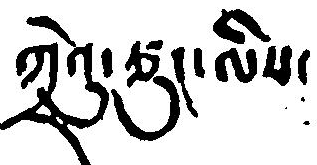ཀྲེའུ་ཙུང་ལིས་
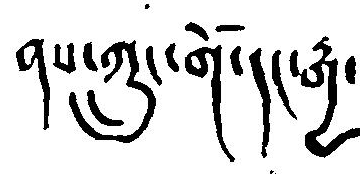ནས་ཀྲུ་གོ་ད་རྒྱ་
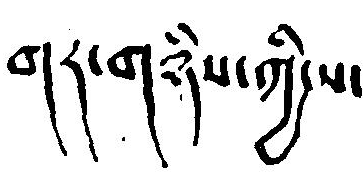གར་གཉིས་ཀྱི་ས་
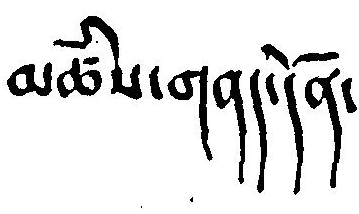མཚིས་གནད་དོན་
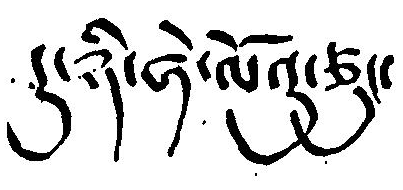དུ་ཉི་ཧེ་ལོའུ་ཙུང་
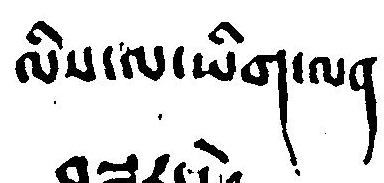ལིས་ལ་ཡིག་ལན་
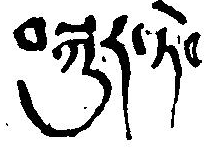བསྐུར་ཏེ་
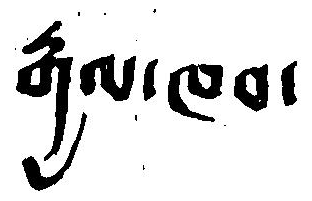རྒྱལ་ཁབ་
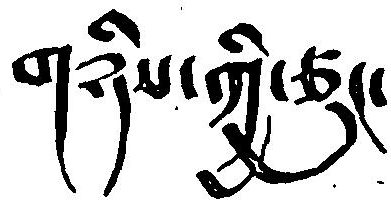ཀཉིས་ཀྱི་ཙུང་
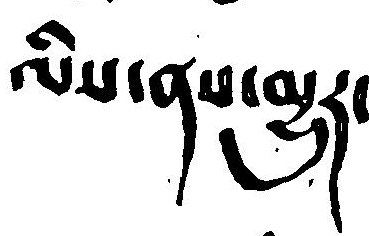ལིས་ནས་མྱུར་
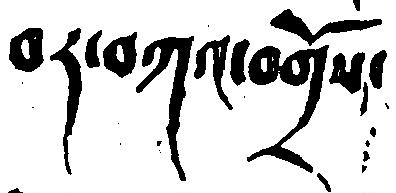བར་བཀའ་འགྲོས་
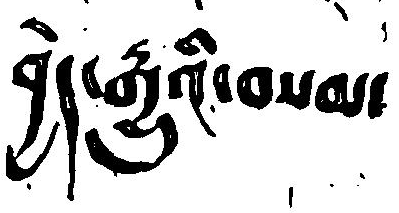བྱེད་རྒྱུའི་བསམ་
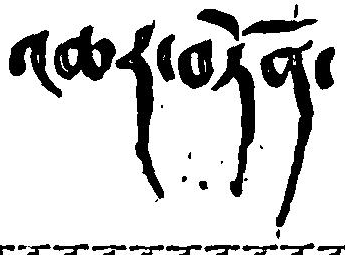འཆར་བཏོན་
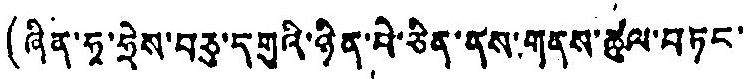(ཞིན་ཧྭ་ཧྲེས་བཅུ་དགུའི་ཉིན་པེ་ཅིན་ནས་གནས་ཚུལ་བཏང་
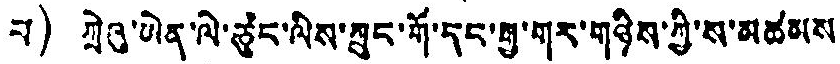པ) ཀྲེའུ་ཨེན་ལེ་ཙུང་ལིས་ཀྲུང་གོ་དང་རྒྱ་གར་གཉིས་ཀྱི་ས་མཚམས
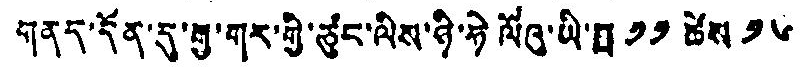གནད་དོན་དུ་རྒྱ་གར་གྱི་ཙུང་ལིས་ཉི་ཧེ ལོའུ་ཡི་ཟླ ༡༡ ཚེས ༡༦
